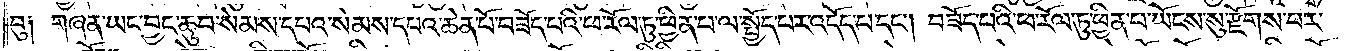བུ༑ གཞན་ཡང་བྱང་ཆུབ་སེམས་དཔའ་སེམས་དཔའ་ཆེན་པོ་བཟོད་པའི་ཕ་རོལ་ཏུ་ཕྱིན་པ་ལ་སྤྱོད་པར་འདོད་པ་དང༌། བཟོད་པའི་ཕ་རོལ་ཏུ་ཕྱིན་པ་ཡོངས་སུ་རྫོགས་པར་
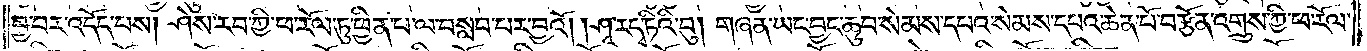བྱ་བར་འདོད་པས། ཤེས་རབ་ཀྱི་ཕ་རོལ་ཏུ་ཕྱིན་པ་ལ་བསླབ་པར་བྱའོ། །ཤཱ་ར་དྭ་ཏིའི་བུ། གཞན་ཡང་བྱང་ཆུབ་སེམས་དཔའ་སེམས་དཔའ་ཆེན་པོ་བརྩོན་འགྲུས་ཀྱི་ཕ་རོལ་
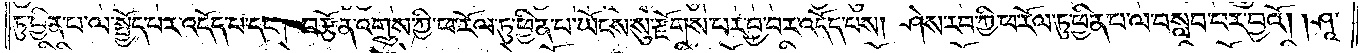ཏུ་ཕྱིན་པ་ལ་སྤྱོད་པར་འདོད་པ་དང༌། བརྩོན་འགྲུས་ཀྱི་ཕ་རོལ་ཏུ་ཕྱིན་པ་ཡོངས་སུ་རྫོགས་པར་བྱ་བར་འདོད་པས། ཤེས་རབ་ཀྱི་ཕ་རོལ་ཏུ་ཕྱིན་པ་ལ་བསླབ་པར་བྱའོ། །ཤཱ་
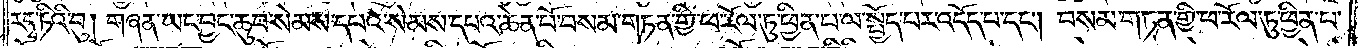ར་དྭ་ཏིའི་བུ། གཞན་ཡང་བྱང་ཆུབ་སེམས་དཔའ་སེམས་དཔའ་ཆེན་པོ་བསམ་གཏན་གྱི་ཕ་རོལ་ཏུ་ཕྱིན་པ་ལ་སྤྱོད་པར་འདོད་པ་དང༌། བསམ་གཏན་གྱི་ཕ་རོལ་ཏུ་ཕྱིན་པ་
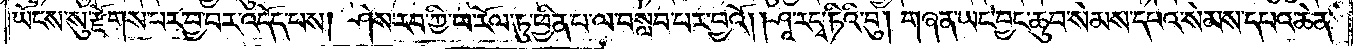ཡོངས་སུ་རྫོགས་པར་བྱ་བར་འདོད་པས། ཤེས་རབ་ཀྱི་ཕ་རོལ་ཏུ་ཕྱིན་པ་ལ་བསླབ་པར་བྱའོ། །ཤཱ་ར་དྭ་ཏིའི་བུ། གཞན་ཡང་བྱང་ཆུབ་སེམས་དཔའ་སེམས་དཔའ་ཆེན་
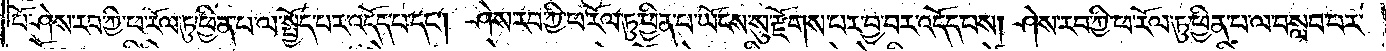པོ་ཤེས་རབ་ཀྱི་ཕ་རོལ་ཏུ་ཕྱིན་པ་ལ་སྤྱོད་པར་འདོད་པ་དང༌། ཤེས་རབ་ཀྱི་ཕ་རོལ་ཏུ་ཕྱིན་པ་ཡོངས་སུ་རྫོགས་པར་བྱ་བར་འདོད་པས། ཤེས་རབ་ཀྱི་ཕ་རོལ་ཏུ་ཕྱིན་པ་ལ་བསླབ་པར་
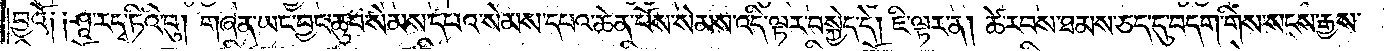བྱའོ། །ཤཱ་ར་དྭ་ཏིའི་བུ། གཞན་ཡང་བྱང་ཆུབ་སེམས་དཔའ་སེམས་དཔའ་ཆེན་པོས་སེམས་འདི་ལྟར་བསྐྱེད་དེ། ཇི་ལྟར་ན། ཚེ་རབས་ཐམས་ཅད་དུ་བདག་གིས་སངས་རྒྱས་
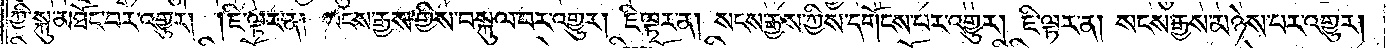ཀྱི་སྐུ་མཐོང་བར་འགྱུར། །ཇི་ལྟར་ན། སངས་རྒྱས་གྱིས་བསྐུལ་བར་འགྱུར། ཇི་ལྟར་ན། སངས་རྒྱས་ཀྱིས་དགོངས་པར་འགྱུར། ཇི་ལྟར་ན། སངས་རྒྱས་མཉེས་པར་འགྱུར།
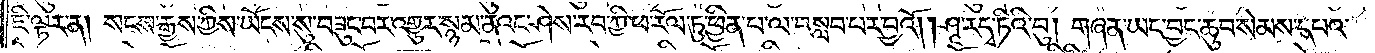ཇི་ལྟར་ན། སངས་རྒྱས་ཀྱིས་ཡོངས་སུ་བཟུང་བར་འགྱུར་སྙམ་ནའང་ཤེས་རབ་ཀྱི་ཕ་རོལ་ཏུ་ཕྱིན་པ་ལ་བསླབ་པར་བྱའོ། །ཤཱ་ར་དྭ་ཏིའི་བུ། གཞན་ཡང་བྱང་ཆུབ་སེམས་དཔའ་
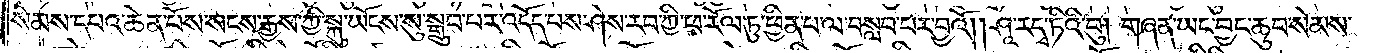སེམས་དཔའ་ཆེན་པོས་སངས་རྒྱས་ཀྱི་སྐུ་ཡོངས་སུ་སྒྲུབ་པར་འདོད་པས་ཤེས་རབ་ཀྱི་ཕ་རོལ་ཏུ་ཕྱིན་པ་ལ་བསླབ་པར་བྱའོ། །ཤཱ་ར་དྭ་ཏིའི་བུ། གཞན་ཡང་བྱང་ཆུབ་སེམས་
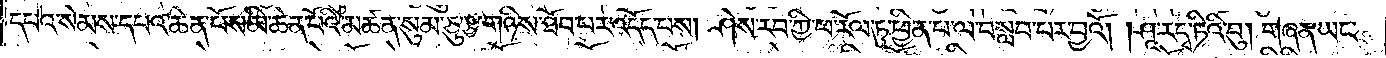དཔའ་སེམས་དཔའ་ཆེན་པོས་མི་ཆེན་པོའི་མཚན་སུམ་ཅུ་རྩ་གཉིས་ཐོབ་པར་འདོད་པས། ཤེས་རབ་ཀྱི་ཕ་རོལ་ཏུ་ཕྱིན་པ་ལ་བསླབ་པར་བྱའོ། །ཤཱ་ར་དྭ་ཏིའི་བུ། གཞན་ཡང་
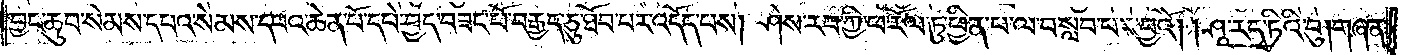བྱང་ཆུབ་སེམས་དཔའ་སེམས་དཔའ་ཆེན་པོ་དཔེ་བྱད་བཟང་པོ་བརྒྱད་ཅུ་ཐོབ་པར་འདོད་པས། ཤེས་རབ་ཀྱི་ཕ་རོལ་ཏུ་ཕྱིན་པ་ལ་བསླབ་པར་བྱའོ། །ཤཱ་ར་དྭ་ཏིའི་བུ། གཞན་
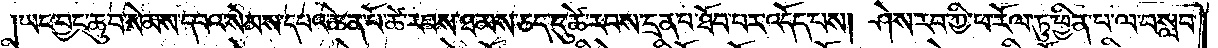ཡང་བྱང་ཆུབ་སེམས་དཔའ་སེམས་དཔའ་ཆེན་པོ་ཚེ་རབས་ཐམས་ཅད་དུ་ཚེ་རབས་དྲན་པ་ཐོབ་པར་འདོད་པས། ཤེས་རབ་ཀྱི་ཕ་རོལ་ཏུ་ཕྱིན་པ་ལ་བསླབ་
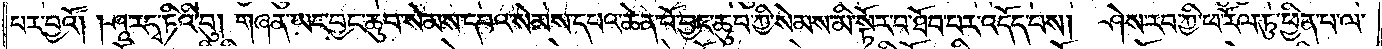པར་བྱའོ། །ཤཱ་ར་དྭ་ཏིའི་བུ། གཞན་ཡང་བྱང་ཆུབ་སེམས་དཔའ་སེམས་དཔའ་ཆེན་པོ་བྱང་ཆུབ་ཀྱི་སེམས་མི་སྟོར་བ་ཐོབ་པར་འདོད་པས། ཤེས་རབ་ཀྱི་ཕ་རོལ་ཏུ་ཕྱིན་པ་ལ་
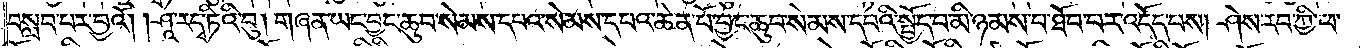བསླབ་པར་བྱའོ། །ཤཱ་ར་དྭ་ཏིའི་བུ། གཞན་ཡང་བྱང་ཆུབ་སེམས་དཔའ་སེམས་དཔའ་ཆེན་པོ་བྱང་ཆུབ་སེམས་དཔའི་སྤྱོད་པ་མི་ཉམས་པ་ཐོབ་པར་འདོད་པས། ཤེས་རབ་ཀྱི་ཕ་
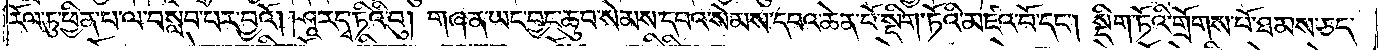རོལ་ཏུ་ཕྱིན་པ་ལ་བསླབ་པར་བྱའོ། །ཤཱ་ར་དྭ་ཏིའི་བུ། གཞན་ཡང་བྱང་ཆུབ་སེམས་དཔའ་སེམས་དཔའ་ཆེན་པོ་སྡིག་ཏོའི་མཛའ་བོ་དང༌། སྡིག་ཏོའི་གྲོགས་པོ་ཐམས་ཅད་
